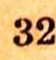32
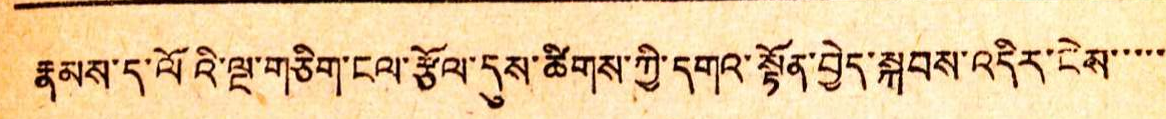རྣམས་ད་ལོའི་ལྔ་གཅིག་ངལ་རྩོལ་དུས་ཚིགས་ཀྱི་དགའ་སྟོན་བྱེད་སྐབས་འདིར་ངེས་་་་་
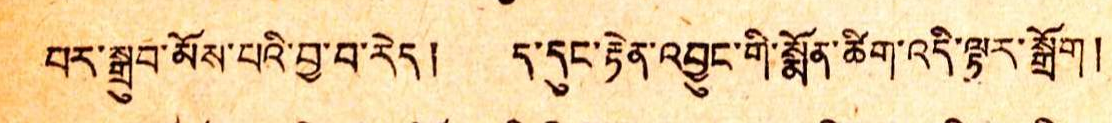བར་སྒྲུབ་མོས་པའི་བྱ་བ་རེད། ད་དུང་རྟེན་འབྱུང་གི་སྨོན་ཚིག་འདི་ལྟར་སྒྲོག།
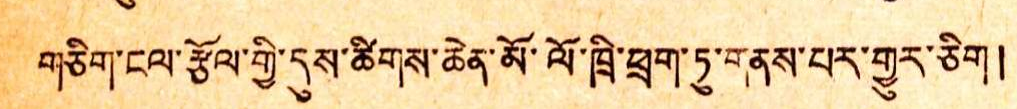གཅིག་ངལ་རྩོལ་གྱི་དུས་ཚིགས་ཆེན་མོ་ལོ་ཁྲི་ཕྲག་ཏུ་གནས་པར་གྱུར་ཅིག།
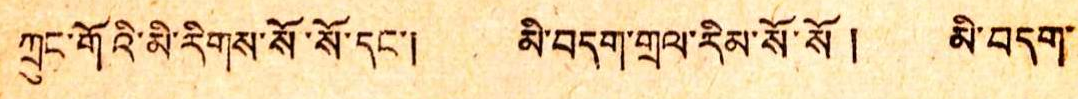ཀྲུང་གོའི་མི་རིགས་སོ་སོ་དང་། མི་བདག་གྲལ་རིམ་སོ་སོ། མི་བདག་
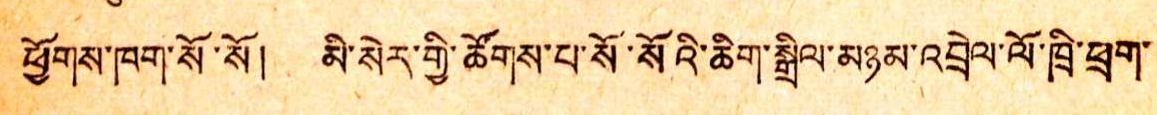ཕྱོགས་ཁག་སོ་སོ། མི་སེར་གྱི་ཚོགས་པ་སོ་སོའི་ཆིག་སྒྲིལ་མཉམ་འབྲེལ་ལོ་ཁྲི་ཕྲག་
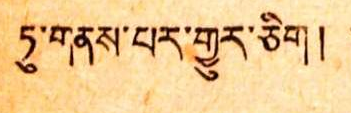ཏུ་གནས་པར་གྱུར་ཅིག།
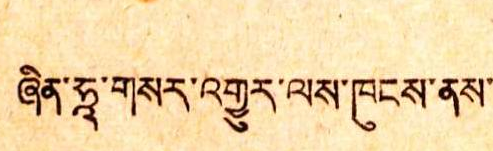ཞིན་ཧཱ་གསར་འགྱུར་ལས་ཁུངས་ནས་
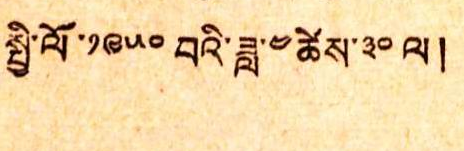སྤྱི་ལོ་༡༩༥༠ བའི་ཟླ་༤ཚེས་༣༠ ལ།
